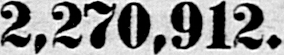2,270,912.
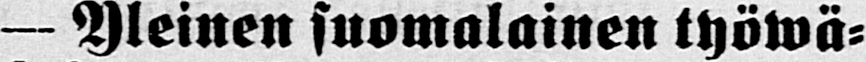- Yleinen suomalainen työwä-
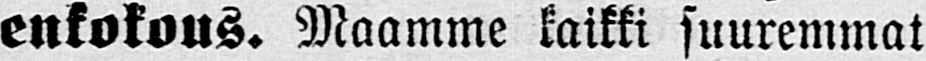enkokous. Maamme kaikki suuremmat
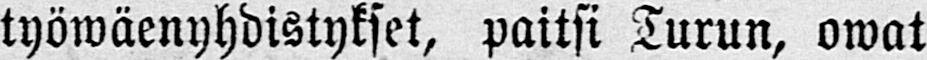työwäenyhdistykset, paitsi Turun, owat
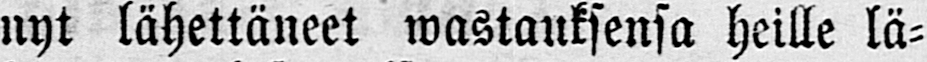nyt lähettäneet wastauksensa heille lä-
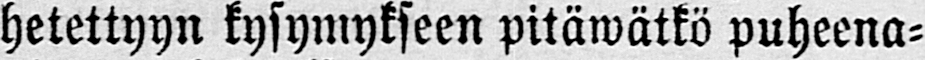hetettyyn kysymykseen pitäwätkö puheena-
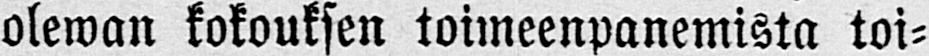olewan kokouksen toimeenpanemista toi-
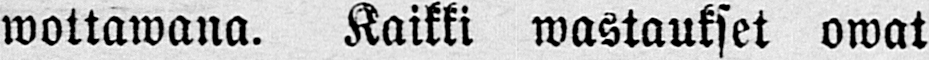wottawana. Kaikki wastaukset owat
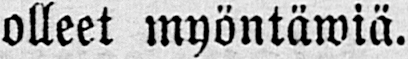olleet myöntäwiä.
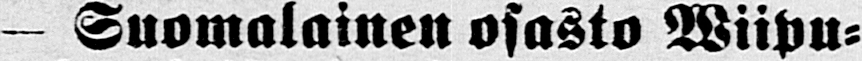— Suomalainen osasto Wiipu-
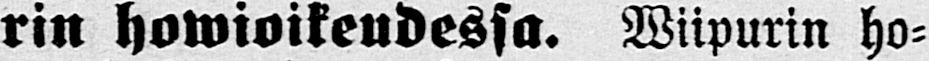rin howioikeudessa. Wiipurin ho-
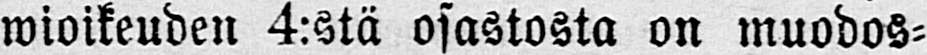wioikeuden 4:stä osastosta on muodos-
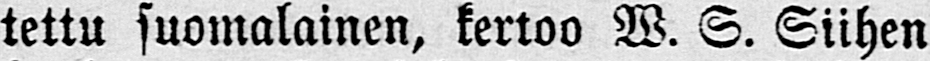tettu suomalainen, kertoo W. S. Siihen
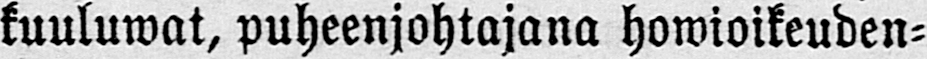kuuluwat, puheenjohtajana howioikeuden-
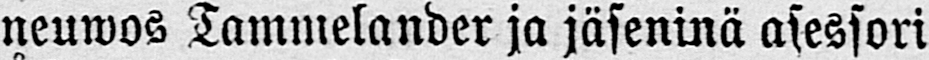neuwos Tammelander ja jäseninä asessori
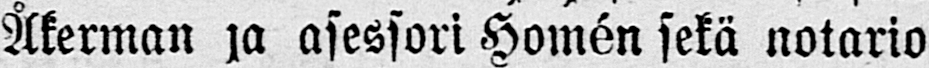Åkerman ja asessori Homén sekä notario
